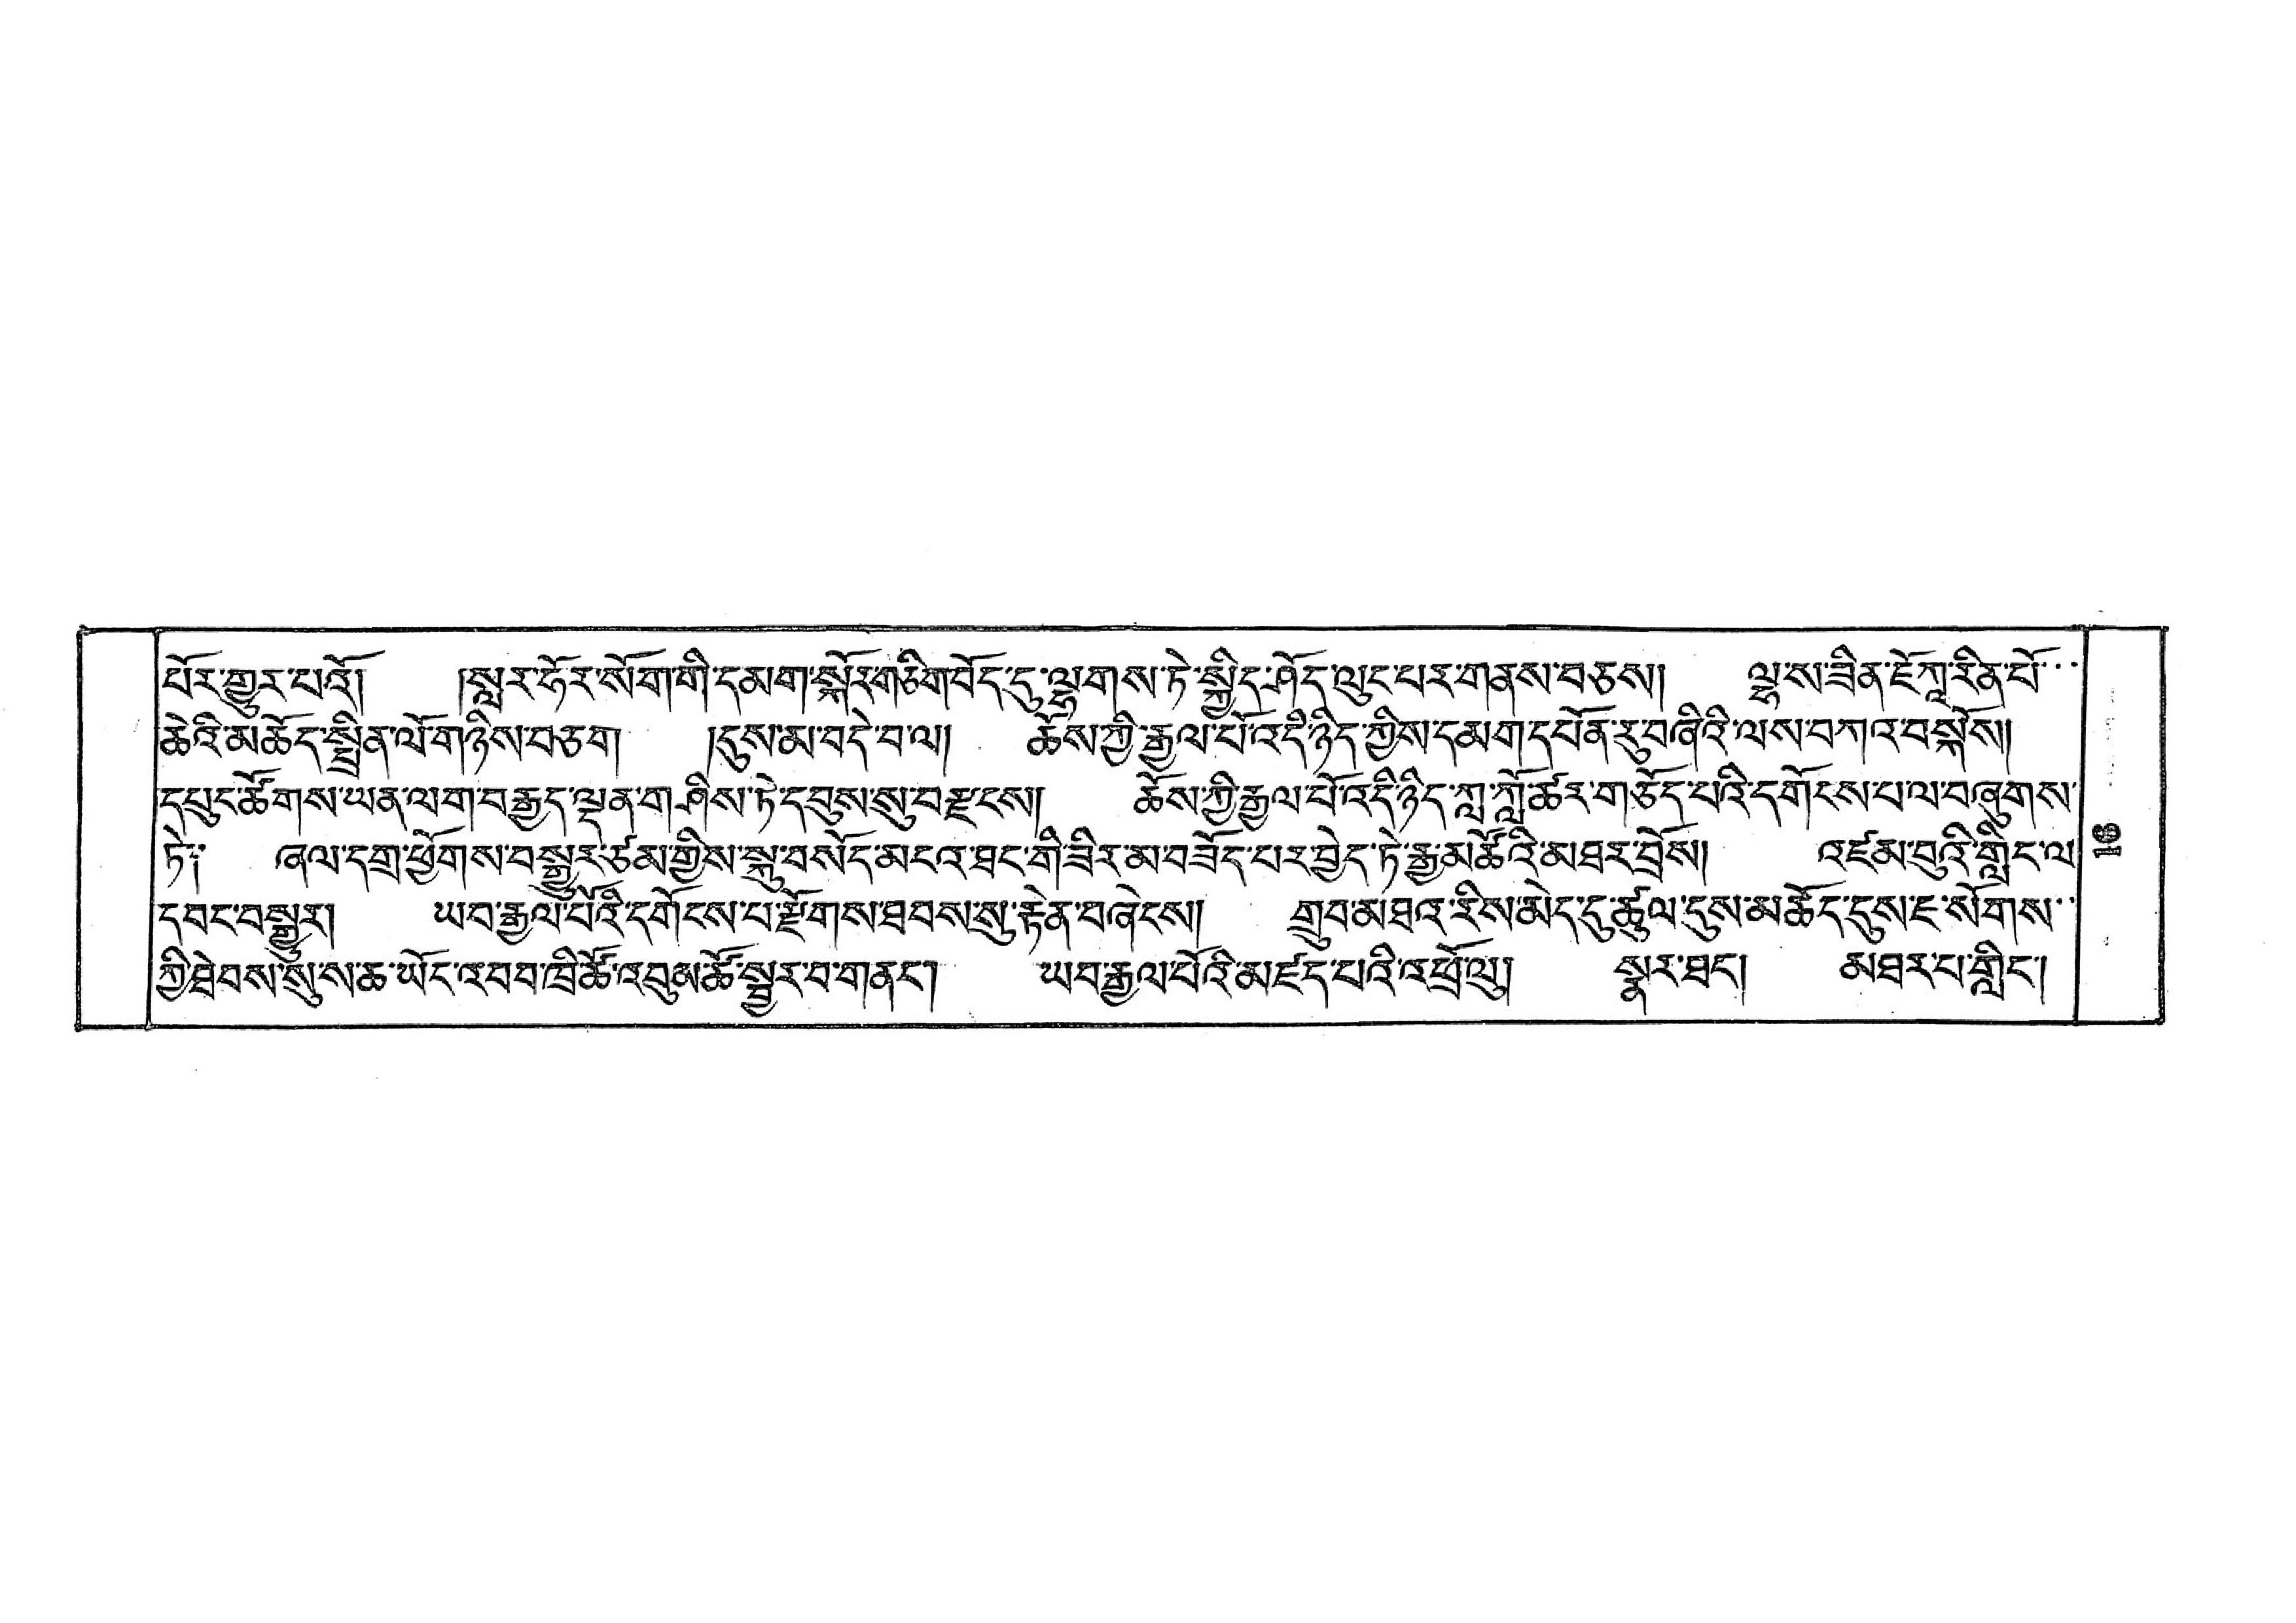པོར་གྱུར་པའོ། །སླར་ཧོར་སོག་གི་དམག་སྐོར་གཅིག་བོད་དུ་ལྷགས་ཏེ་སྐྱིད་ཤོད་ལུང་པར་གནས་བཅས། ལྷ་ས་ཟིན་ཇོཀཱརིན་པོ་
ཆེའི་མཆོད་སྤྲིན་ལོ་གཉིས་བཅག །དུས་མ་བདེ་བ་ལ། ཆོས་ཀྱི་རྒྱལ་པོ་འདི་ཉིད་ཀྱིས་དམག་དཔོན་རུ་བཞིའི་ལས་བཀའ་བསྐོས།
དཔུང་ཚོགས་ཡན་ལག་བརྒྱད་ལྡན་གཤིས་ཏེ་དབུས་སུ་བརྫངས། ཆོས་ཀྱི་རྒྱལ་པོ་འདི་ཉིད་ཀླ་ཀློ་ཚར་གཅོད་པའི་དགོངས་པ་ལ་བཞུགས་
ཏི༑ ཞལ་དགྲ་ཕྱོགས་བསྒྱུར་ཙམ་གྱིས་སྐུ་བསོད་མངའ་ཐང་གི་ཟིར་མ་བཟོད་པར་བྱེད་ཏེ་རྒྱ་མཚོའི་མཐར་བྲོས། འཛམ་བུའི་གླིང་ལ་
དབང་བསྒྱུར། ཡབ་རྒྱལ་པོའི་དགོངས་པ་རྫོགས་ཐབས་སུ་རྟེན་བཞེངས། གྲུབ་མཐའ་རིས་མེད་དུ་ཚུལ་དུས་མཆོད་དུས་ཇ་སོགས་་
ཀྱི་ཐེབས་སུ་ས་ཆ་ཡོད་འབབ་ཁྲི་ཚོ་འབུམ་ཚོ་སྦྱར་བ་གནང་། ཡབ་རྒྱལ་པོའི་མཛད་པའི་འཕྲོ་ལུ། སྣར་ཐང་། མཐར་པ་གླིང་།
